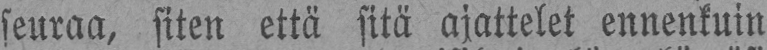seuraa, siten että sitä ajattelet ennenkuin
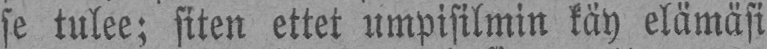se tulee; siten ettet umpisilmin käy elämäsi
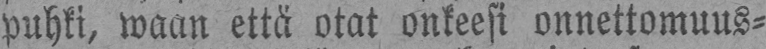puhki, waan että otat onkeesi onnettomuus-
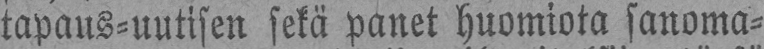tapaus-uutisen sekä panet huomiota sanoma-
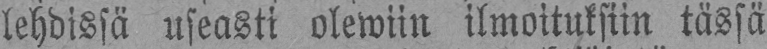lehdissä useasti olewiin ilmoituksiin tässä
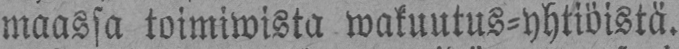maassa toimiwista wakuutus-yhtiöistä.
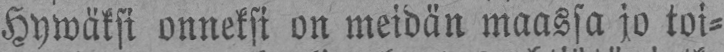Hywäksi onneksi on meidän maassa jo toi-
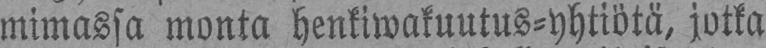mimassa monta henkiwakuutus-yhtiötä, jotka
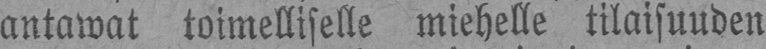antawat toimelliselle miehelle tilaisuuden
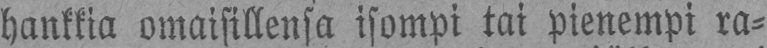hankkia omaisillensa isompi tai pienempi ra-
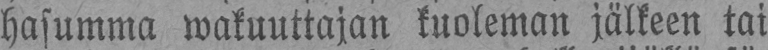hasumma wakuuttajan kuoleman jälkeen tai
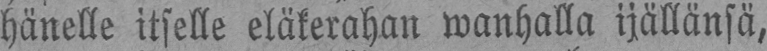hänelle itselle eläkerahan wanhalla ijällänsä,
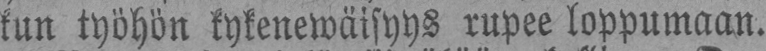kun työhön kykenewäisyys rupee loppumaan.
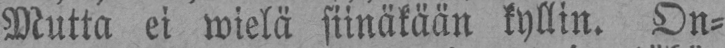Mutta ei wielä siinäkään kyllin. On-
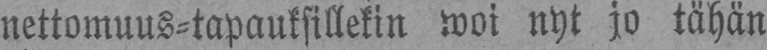nettomuus-tapauksillekin woi nyt jo tähän
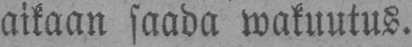aikaan saada wakuutus.
